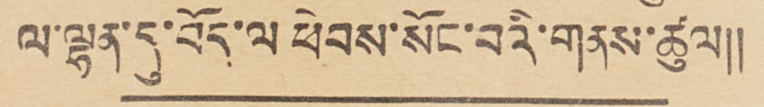ལ་ལྷན་དུ་བོད་ལ ཕེབས་སོང་བའི་གནས་ཚུལ།།
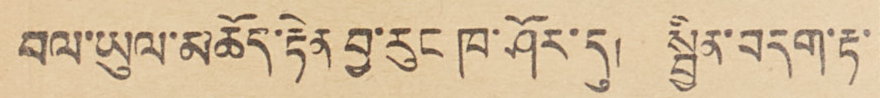བལ་ཡུལ་མཆོད་རྟེན བྱ་རུང ཁ་ཤོར་དུ། སྦྱིན་བདག་རྟ་
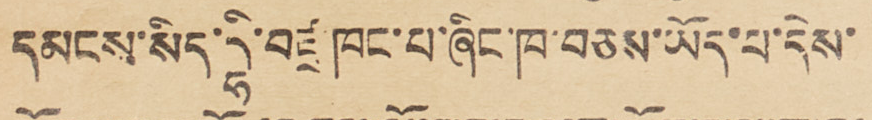དམངས་སིད་དྷི་བཛྲ ཁང་པ་ཞིང་ཁ་བཅས་ཡོད་པ་དེས་
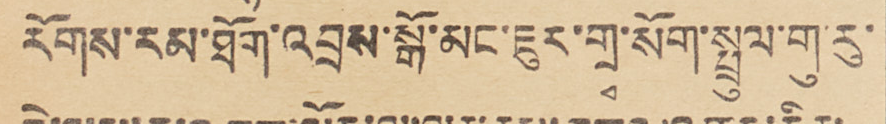རོགས་རམ་ཐོག་འབྲས་སྒོ་མང་ཇུར་གྲྭ་སོག་སྤྲུལ་གུ་རུ་
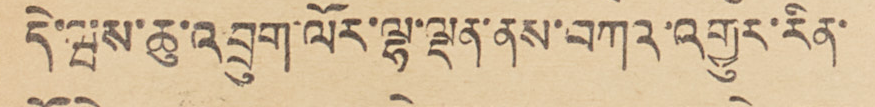དེ་ཝས་ཆུ་འབྲུག་ལོར་ལྷ་ལྡན་ནས་བཀའ་འགྱུར་རིན་
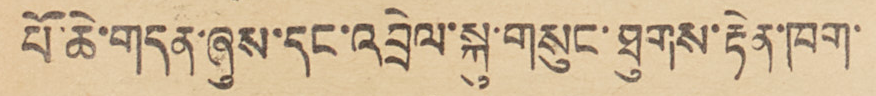པོ་ཆེ་གདན་ཞུས་དང་འབྲེལ་སྐུ་གསུང་ཐུགས་རྟེན་ཁག་
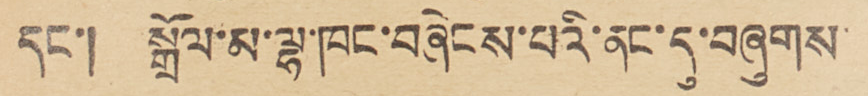དང་། སྒྲོལ་མ་ལྷ་ཁང་བཞེངས་པའི་ནང་དུ་བཞུགས་
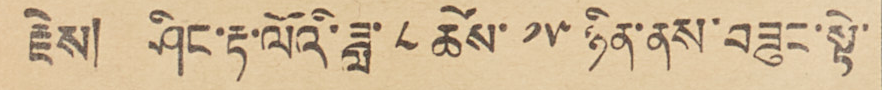རྗེས། ཤིང་རྟ་ལོའི་ཟླ་ ༨ ཚེས་ ༡༥ ཉིན་ནས་བཟུང་སྟེ་
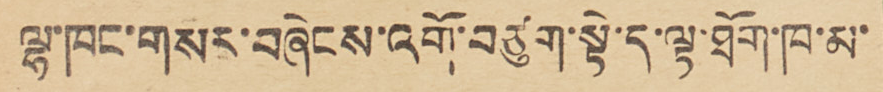ལྷ་ཁང་གསར་བཞེངས་འགོ་བཙུག་སྟེ་ད་ལྟ་ཐོག་ཁ་མ་
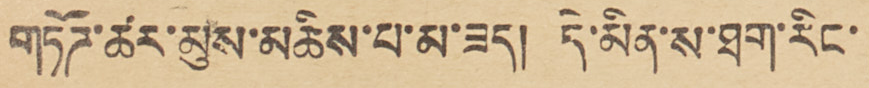གཏོཌ་ཚར་མུས་མཆིས་པ་མ་ཟད། དེ་མིན་ས་ཐག་རིང་
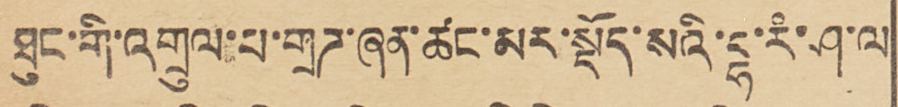ཐུང་གི་འགྲུལ་པ་གྲཌ་ཞན་ཚང་མར་སྡོད་སའི་དྷ་རཾ་ཤ་ལ་
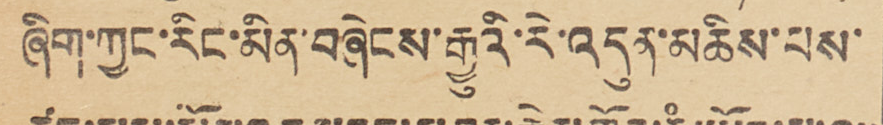ཞིག་ཀྱང་རིང་མིན་བཞེངས་རྒྱུའི་རེ་འདུན་མཆིས་པས་
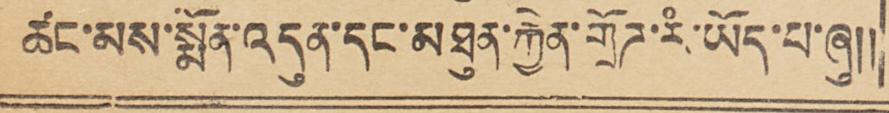ཚང་མས་སྨོན་འདུན་དང་མཐུན་རྐྱེན་གྲོཌ་རཾ་ཡོད་པ་ཞུ།།
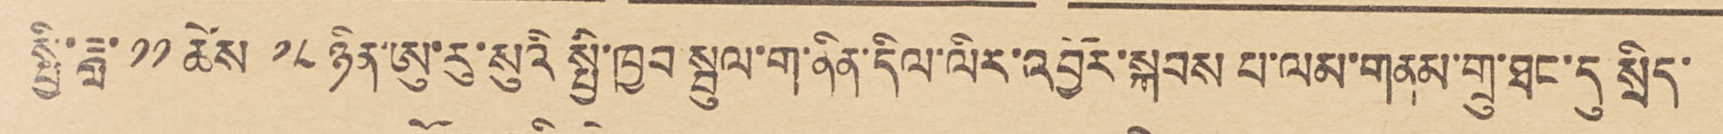སྤྱི་ཟླ་ ༡༡ ཚེས་ ༡༨ ཉིན་ཨུ་རུ་སུའི སྤྱི་ཁྱབ སྦུལ་ག་ནིན་དིལ་ལིར་འབྱོར་སྐབས པ་ལམ་གནམ་གྲུ་ཐང་དུ སྲིད་
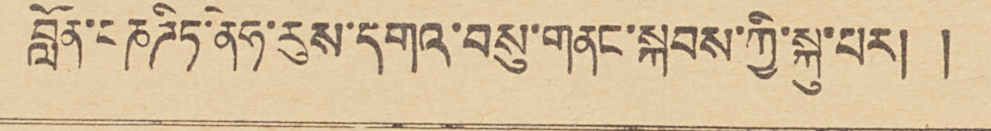བློན་པཎཌིཏ་ནེཧ་རུས་དགའ་བསུ་གནང་སྐབས་ཀྱི་སྐུ་པར། །
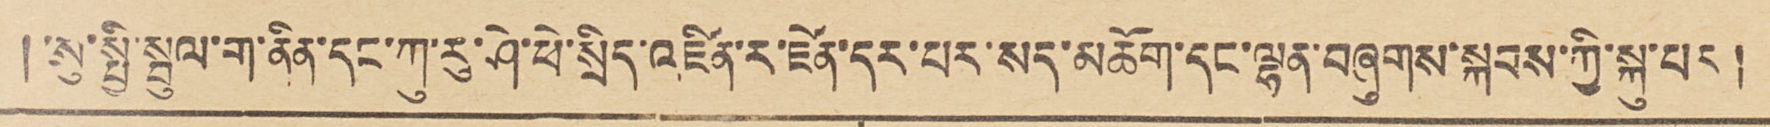། ཨུ་སྤྱི་སྦུལ་ག་ནིན་དང་ཀུ་རུ་ཤེ་ཕེ་སྲིད་འཛིན་ར་ཛེན་དར་པར་སད་མཆོག་དང་ལྷན་བཞུགས་སྐབས་ཀྱི་སྐུ་པར།
